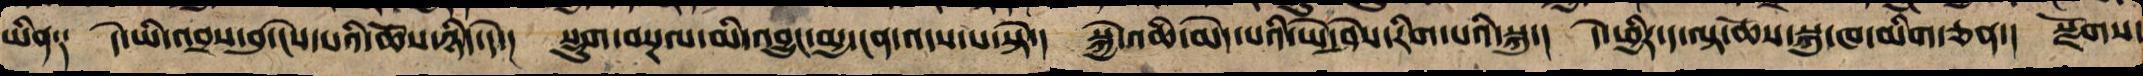ཡིན༑ དེ་ཡི་འབྲས་བུ་ངེས་པའི་ཆོས་ཉིད་དེ་། སྡུག་བསྔལ་མི་འབྱུང་མྱ་ངན་འདས་པ་སྟེ་། སྐྱེ་འཆི་མེད་པའི་ཡེ་ཤེས་རིག་པའི་སྐུ་། དེ་ཕྱིར་ད་ལྟ་ཆོས་སྐུ་ཁ་མིག་ཅན་། སྫོགས་
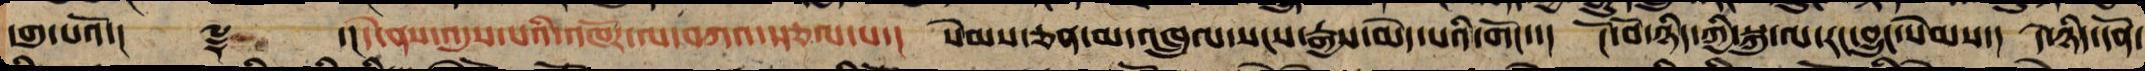དགུ་པའོ་།། ༈ ་།།དེ་ནས་འདུས་པའི་འཁོར་ལ་བཀའ་སྩལ་པ་། སེམས་ཅན་མ་འཁྲུལ་སངས་རྒྱས་མེད་པའི་གོང་་། ངོ་བོ་ཉིད་ཀྱི་སྐུ་ལ་རང་བྱུང་སེམས་། དེ་ཉིད་དོན་
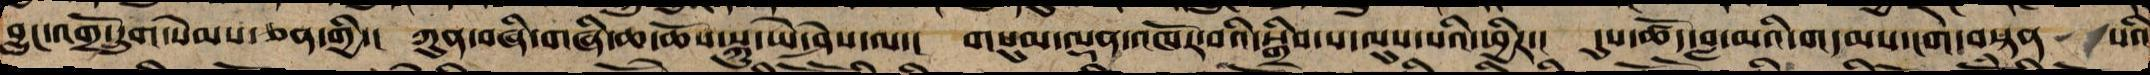བྱུང་འགྲོ་དྲུག་སེམས་ཅན་གྱི་། ཀུན་གྱི་གཞི་ཆ་ཆོས་སྐུ་ཡེ་ཤེས་ལ་། གསུམ་ལྡན་འཁོར་བས་བསྒྲིབས་པ་ལུས་ཡིན་ཕྱིར་། དུས་ཚོད་བླ་མའི་གདམས་ངག་བསྟན པའི
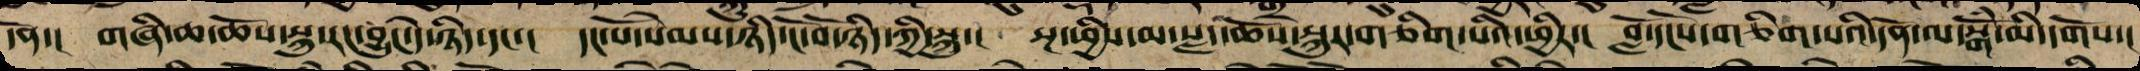དོན་། གཞི་ཆ་ཆོས་སྐུ་རང་བྱུང་དེ་ཉིད་དང་། དང་པོ་སེམས་ཉིད་ངོ་བོ་ཉིད་ཀྱི་སྐུ་། སྔ་ཕྱིས་མ་བསླད་ཆོས་སྐུར་གཅིག་པའི་ཕྱིར་། བློ་དངོས་གཅིག་པའི་དོན་ལ་སྒོཾ་མི་དགོས་།
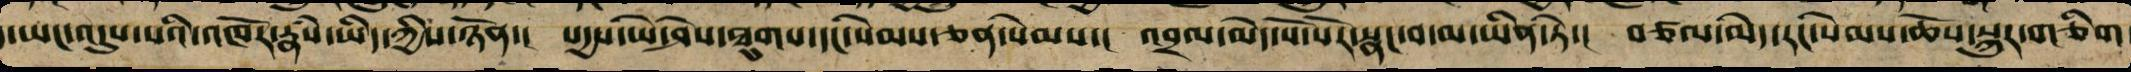ད་ཡང་འདུས་པའི་འཁོར་རྣཾས་ཡིད་ཀྱིས་ཉོན་། སདྱས་ཡེ་ཤེས་ཐུགས་དང་སེམས་ཅན་སེམས་།  འབྲལ་མེད་སོ་སོར་སྣང་བ་མ་ཡིན་ཏེ་། བཙལ་མེད་རང་སེམས་ཆོས་སྐུར་གཅིག་
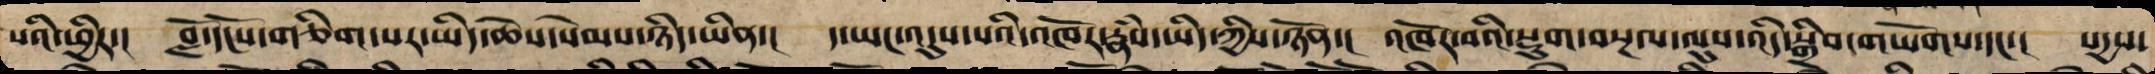པའི་ཕྱིར་། བློ་དངོས་གཅིག་པར་ཡིད་ཆེས་སེམས་ཉིད་ཡིན་། ད་ཡང་འདུས་པའི་འཁོར་རྣཾས་ཡིད་ཀྱིས་ཉོན་། འཁོར་བའི་སྡུག་བསྔལ་ལུས་འདི་སྒྲིབ་གཡོགས་དང་། སདྱས་
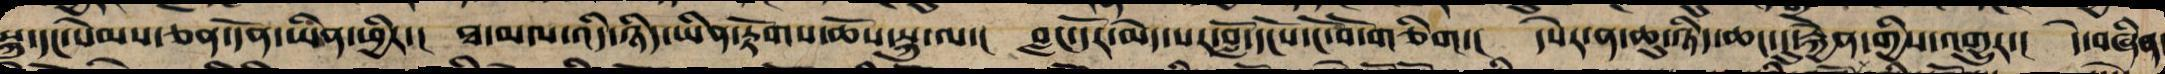སྐུ་དང་སེམས་ཅན་དོན་ཡིན་ཕྱིར་། ཐ་མལ་འདི་ཉིད་ཡིན་རྟོགས་ཆོས་སྐུ་ལ་། བླང་དོར་མེད་པར་བློ་དངོས་ངོ་བོ་གཅིག། དཔེར་ན་ཆུ་ཉིད་ཆང་དུ་རྐྱེན་གྱིས་འགྱུར་། དེ་བཞིན་
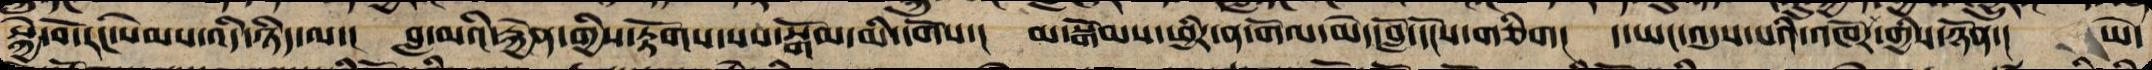སྐྱེ་བོ་རང་སེམས་འདི་ཉིད་ལ་། བླ་མའི་རྐྱེན་གྱིས་རྟོགས་པས་བསྒོམ་མི་དགོས་། མ་སྒོམས་ཕྱིར་ན་གོལ་མེད་བློ་དངོས་གཅིག། ད་ཡང་འདུས་པའི་འཁོར་རྣམས་ཡིད་ཀྱིས་ཉོན་། ཡེ་
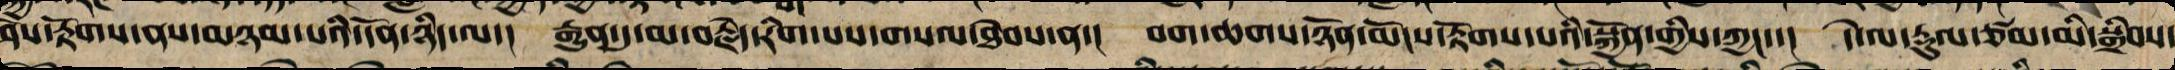ཤེས་རྟོགས་ནས་མཉམ་པའི་དོན་ཉིད་ལ་། རྒྱུན་དུ་མ་བརྗེད་རིག་པས་གསལ་ཐེབས་ན་། བག་ཆགས་ཉོན་མོངས་རྟོག་པའི་སྐྱོན་གྱིས་ཀྱང་་། དེ་ལ་རྡུལ་ཙམ་མི་སྒྲིབས་
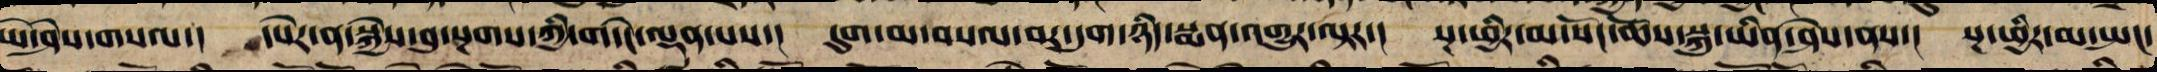ཡེ་ཤེས་གསལ་། དཔེར་ན་སྐྱེས་བུ་སྔགས་ཀྱི་གདེང་ལྡན་པས་།  དུག་མ་བསལ་བར་དུག་ཉིད་སྨན་འགྱུར་ལྟར་། སྔ་ཕྱིར་མ་སོང་ཆོས་སྐུ་ཡིན་ཤེས་ནས་། སྔ་ཕྱིར་མ་སྤང་
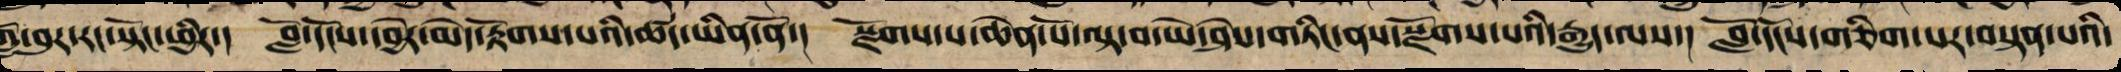གློ་བུར་རང་སྟོང་ཕྱིར་། བློ་དངོས་དབྱེར་མེད་རྟོགས་པའི་ཚད་ཡིན་ནོ་། སྫོགས་པ་ཆེན་པོ་ལྟ་བ་ཡེ་ཤེས་གཏིང་ནས་སྫོགས་པའི་རྒྱུད་ལས་། བློ་དངོས་གཅིག་པར་བསྟན་པའི་
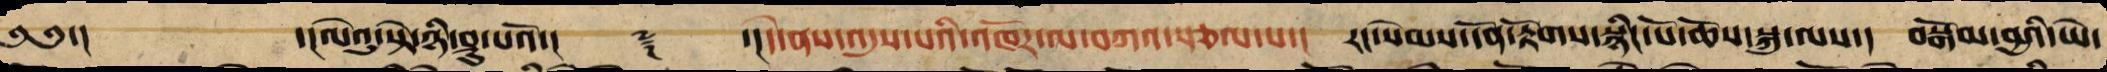༄༅་། ་།ལེའུ་སྟེ་ཉི་ཤུ་པའོ་།། ༈ ་།།དེ་ནས་འདུས་པའི་འཁོར་ལ་བཀའ་སྩལ་པ་། རང་སེམས་དོན་རྟོགས་སྙིང་པོ་ཆོས་སྐུ་ལས་། བསྒོམ་བྱའི་ཡེ་
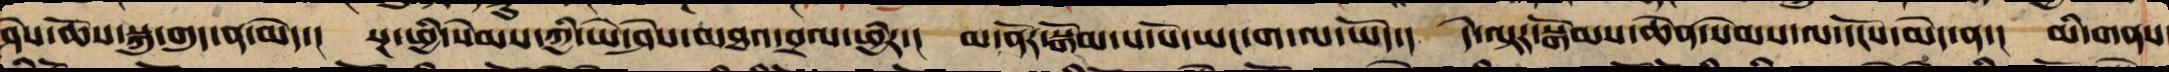ཤེས་ཆོས་སྐུ་གུད་ན་མེད་། སྔ་ཕྱི་སེམས་ཀྱི་ཡེ་ཤེས་མཐའ་བྲལ་ཕྱིར་། མ་ནོར་སྒོམ་པ་པོ་ཡང་ག་ལ་ཡོད་། དེ་ལྟར་སྒོམ་ཆེན་སེམས་ལ་དངོས་མེད་ན། མི་གནས་
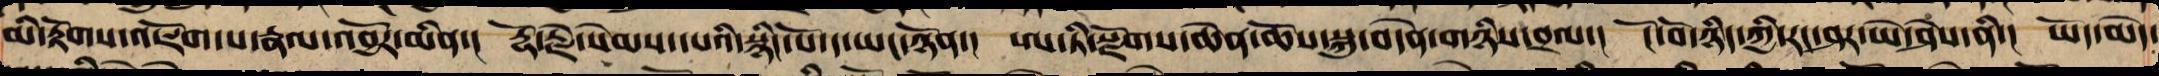མི་རྟོག་འཇོག་པ་རྣལ་འབྱོར་མིན་། རྡོ་རྗེ་སེམས་དཔའ་སྙིང་པོ་ད་ཡང་ཉོན་། ཨ་ཏི་སྫོགས་ཆེན་ཆོས་སྐུ་བདེན་གཉིས་བྲལ་། ངོ་བོ་ཉིད་ཀྱི་རང་ཤར་ཡེ་ཤེས་ནི་། ཡོད་མེད་
